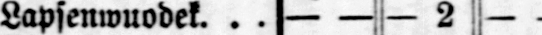Lapsenwuodek — — — 2 — — — —
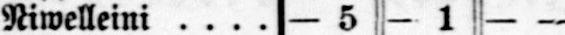Niwelleini — 5 — 1 — — — —
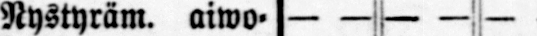Nystyräm. aiwo — — — — — — — —
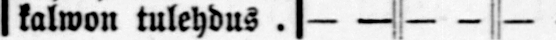kalwon tulehdus — — — — — — — —
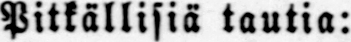Pitkällisiä tautia:
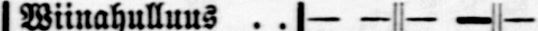Wiinahullus — — — — — — — —
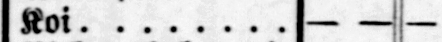Koi — — — — — — — —
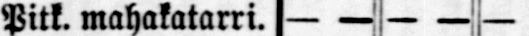Pitk. mahakatarri — — — — — — — —
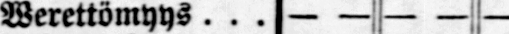Werettömyys — — — — — — — —
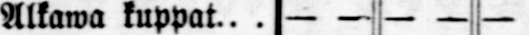Alkawa kuppat — — — — — — — —
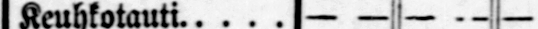Keuhkotauti — — — — — — — —
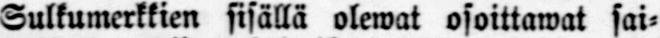Sulkumerkkien sisällä olewat osoittawat sai-
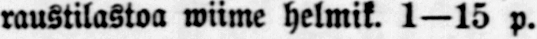raustilastoa wiime helmik. 1—15 p.
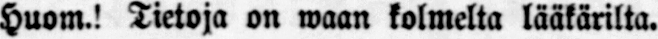Huom.! Tietoja on waan kolmelta lääkärilta.
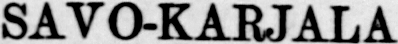SAVO-KARJALA.
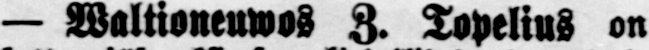— Waltioneuwos Z. Topelius on
